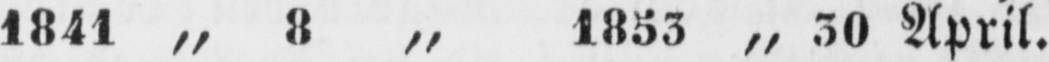1841 „ 8 „ 1853 „ 30 April.
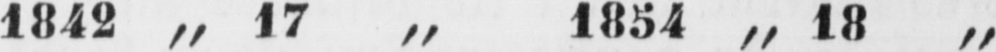1842 „ 17 „ 1854 „ 18 „
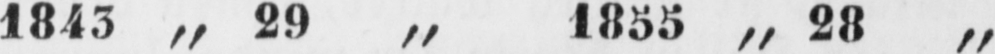1843 „ 29 „ 1855 „ 28 „
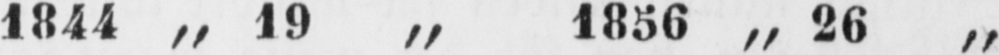1844 „ 19 „ 1856 „ 26 „
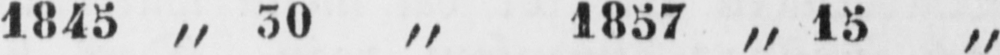1845 „ 30 „ 1857 „ 15 „
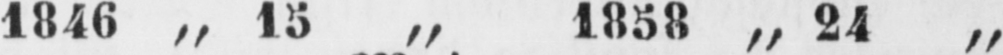1846 „ 15 „ 1858 „ 24 „
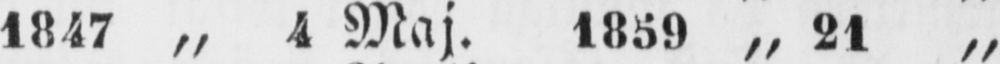1847 „ 4 Maj. 1859 „ 21 „
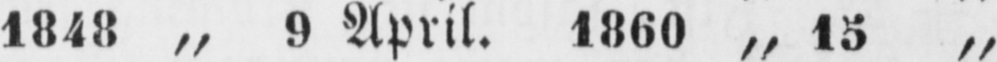1848 „ 9 April. 1860 „ 15 „
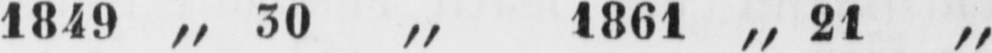1849 „ 30 „ 1861 „ 21 „
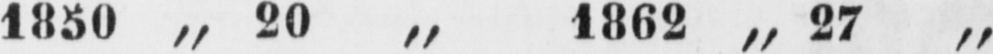1850 „ 20 „ 1862 „ 27 „
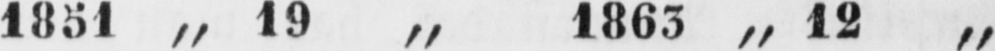1851 „ 19 „ 1863 „ 12 „
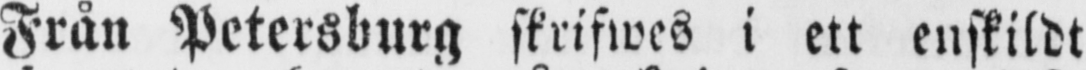från Petersburg skrifwes i ett enskildt
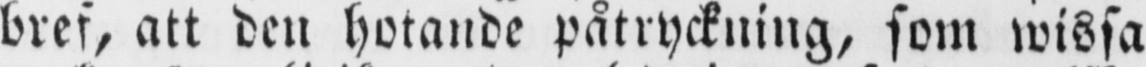bref, att den hotande påtryckning, som wissa
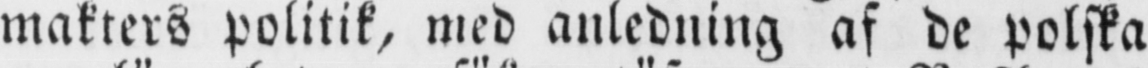makters politik, med anledning af de polska
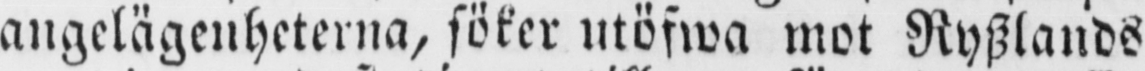angelägenheterna, söker utöfwa mot Ryszlands
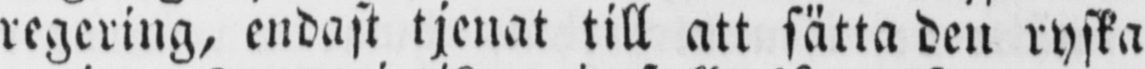regering, endast tjenat till att sätta den ryska
